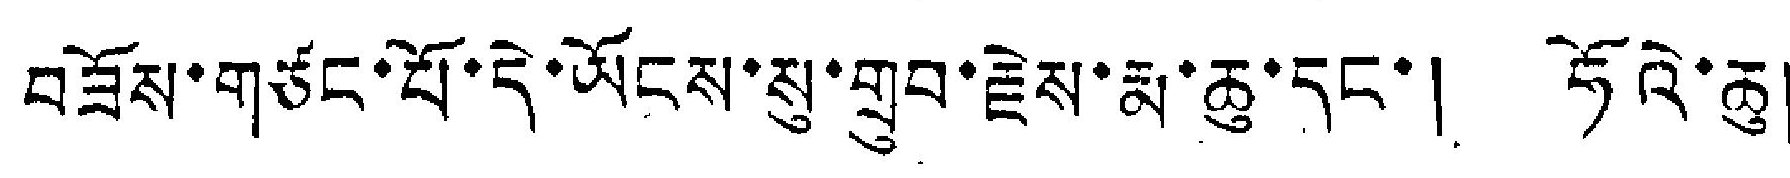བཟོས་གཙང་པོ་དེ་ཡོངས་སུ་གྲུབ་རྗེས་རྨ་ཆུ་དང་། ཧོའེ་ཆུ།
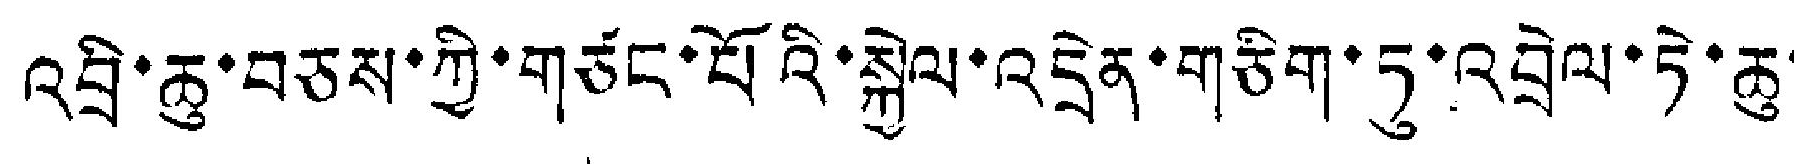འབྲི་ཆུ་བཅས་ཀྱི་གཅང་པོའི་སྐྱེལ་འདྲེན་གཅིག་ཏུ་འབྲེལ་ཏེ་ཆུ་
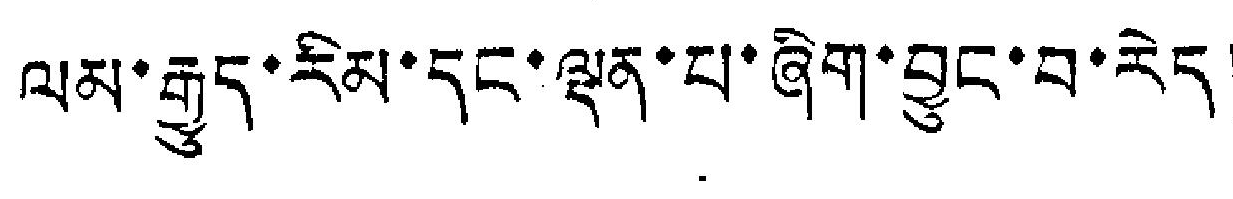ལམ་རྒྱུད་རིམ་དང་ལྡན་པ་ཞིག་བྱུང་བ་རེད།
